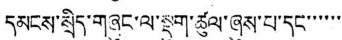དམངས་སྲིད་གཞུང་ལ་སྡུག་ཚུལ་ཞུས་པ་དང་་་་་་་
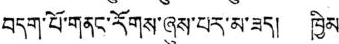བདག་པོ་གནང་རོགས་ཞུས་པར་མ་ཟད། ཁྱིམ་
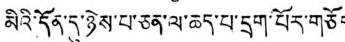མིའི་དོན་དུ་ཉེས་པ་ཅན་ལ་ཆད་པ་དྲག་པོར་གཅོད
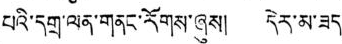པའི་དགྲ་ལན་གནང་རོགས་ཞུས། དེར་མ་ཟད།
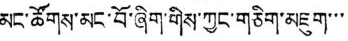མང་ཚོགས་མང་བོ་ཞིག་གིས་ཀྱང་གཅིག་མཇུག་་་
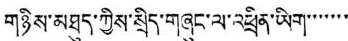གཉིས་མཐུད་ཀྱིས་སྲིད་གཞུང་ལ་འཕྲིན་ཡིག་་་་་་་
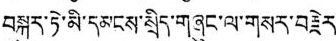བསྐུར་ཏེ་མི་དམངས་སྲིད་གཞུང་ལ་གསར་བརྗེར་་
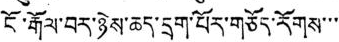ངོ་རྒོལ་བར་ཉེས་ཆད་དྲག་པོར་གཅོད་རོགས་་་་
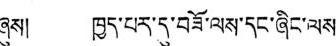ཞུས། ཁྱད་པར་དུ་བཟོ་ལས་དང་ཞིང་ལས་
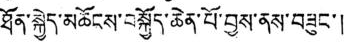ཐོན་སྐྱེད་མཆོངས་བསྐྱོད་ཆེན་པོ་བྱས་ནས་བཟུང་།
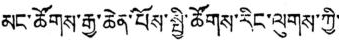མང་ཚོགས་རྒྱ་ཆེན་པོས་སྤྱི་ཚོགས་རིང་ལུགས་ཀྱི་་
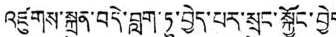འཛུགས་སྐྲུན་བདེ་བླག་ཏུ་བྱེད་པར་སྲུང་སྐྱོང་བྱེད་
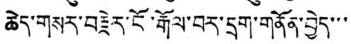ཆེད་གསར་བརྗེར་ངོ་རྒོལ་བར་དྲག་གནོན་བྱེད་་་
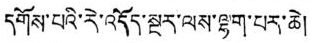དགོས་པའི་རེ་འདོད་སྔར་ལས་ལྷག་པར་ཆེ།
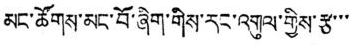མང་ཚོགས་མང་བོ་ཞིག་གིས་རང་འགུལ་གྱིས་རྩ་་་
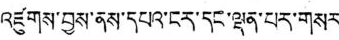འཛུགས་བྱས་ནས་དཔའ་ངར་དང་ལྡན་པར་གསར་
